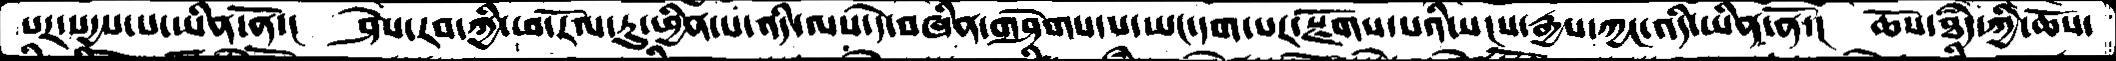པར་སདྱས་པ་ཡིན་ནོ་།  ཤེས་རབ་ཀྱི་ཕ་རོལ་ཏུ་ཕྱིན་པ་འདི་ལས་དེ་བཞིན་གཤེགས་པ་ཡང་དག་པར་སྫོགས་པའི་སངས་རྒྱས་ཀྱང་འདི་ཡིན་ནོ་།  ཆོས་ཐཾད་ཀྱི་ཆོས་
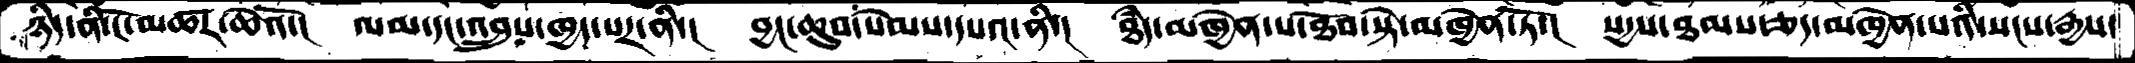ཉིད་ནི་ངོ་མཚར་ཆེའོ་།  ལམ་དང་འབྲུས་ཁྱད་པར་ནི་།  བྱང་ཆུབ་སེམས་དཔའ་ནི་།  ཐཾད་མཁྱེན་པ་ཐོབ་སྟེ་མཁྱེན་ཏོ་།  སདྱས་ཐམས་ཅད་མཁྱེན་པའི་སངས་རྒྱས་
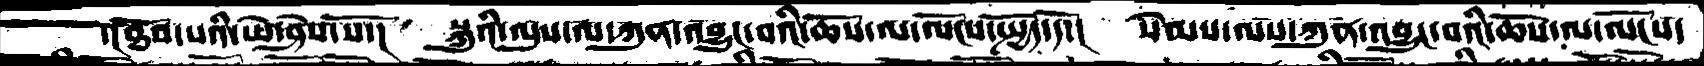་།ཐོབ་པའི་ཡེ་ཤེས་སོ་།  སྐུའི་ལུས་ལ་ཀུན་འབྱུང་བའི་ཆོས་ལ་ལོངས་སྤྱོད་དོ་།  སེམས་ལས་ཀུན་འབྱུང་བའི་ཆོས་ལ་ལོངས་
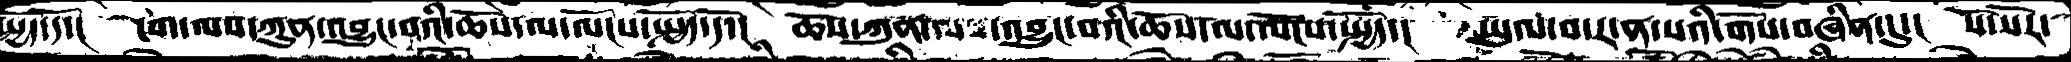སྤྱོད་དོ་།  ངག་ལས་ཀུན་འབྱུང་བའི་ཆོས་ལ་ལོངས་སྤྱོད་དོ་།  ཆོས་ཀུན་ལས་འབྱུང་བའི་ཆོས་ལ་ལོངས་སྤྱོད་།  ཡུལ་བ་ར་ན་སའི་གོས་བཞིན་དུ་།  སོ་སོར་
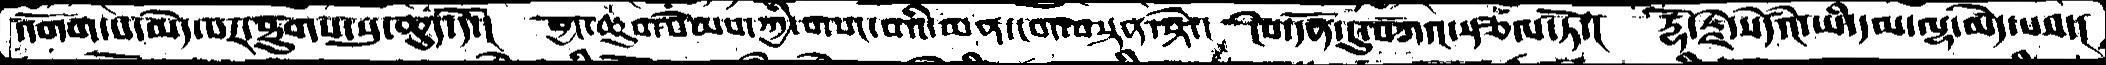འགག་པ་མེད་པར་ཐུགས་སུ་ཆུད་དོ་།  བྱང་ཆུབ་སེམས་ཀྱི་གསང་བའི་མན་ངག་བསྟན་སྟེ་།  ངེས་དོན་དུ་བཀའ་སྩལ་ཏོ་།  རྡོ་རྗེ་སེདཾའ་ཡི་དམ་ལྷ་མེད་པས་།
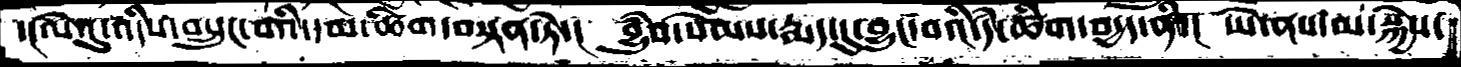་།ལེའུ་འདིས་བསྲུང་བའི་དམ་ཚིག་བསྟན་ཏེ་།  བྱུཾབ་སེམས་རྨད་དུ་བྱུང་བའི་དཾ་ཚིག་བདྱད་ནི་།  ཡེ་ནས་མ་སྐྱེས་
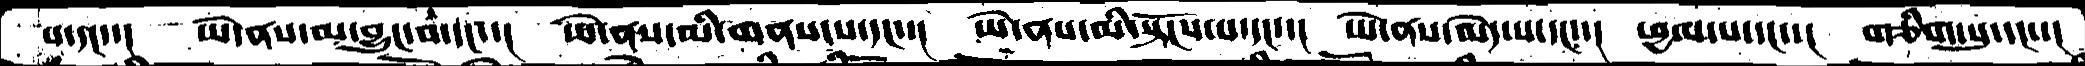ས་དང་་།  ཡེ་ནས་མ་བྱུང་བ་དང་་།  ཡེ་ནས་མི་གནས་པ་དང་་།  ཡེ་ནས་མི་སྟོངས་པ་དང་་།  ཡེ་ནས་མེད་པ་དང་་།  ཕྱལ་པ་དང་་།  གཅིག་པུ་དང་་།
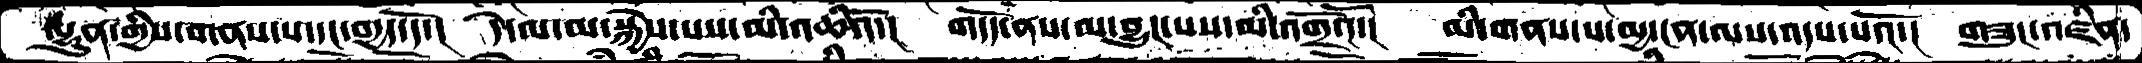ལྷུན་གྱིས་གནས་པ་དང་བདྱད་དོ་།  དེ་ལ་མ་སྐྱེས་པས་མི་འཆིའོ་།  གདོད་ནས་མ་བྱུང་པས་མི་འགྲོའོ་།   མི་གནས་པ་མྱ་ངན་ལས་འདས་པའོ་།  གཟུང་འཛིན་
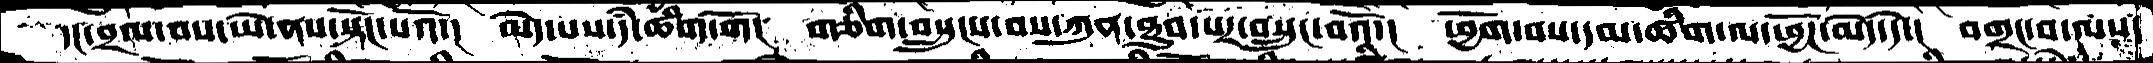དང་བྲལ་བས་ཡེ་ནས་སྟོང་པའོ་།  མེད་པས་དཾ་ཚིག་གོ།  གཅིག་བསྲུངས་བས་ཀུན་ཐུབ་པར་བསྲུང་བའོ་།  ཕྱོག་བས་དམ་ཚིག་ལ་ཕྱོཌ་མེད་དེ་།  བགྲང་བ་ལས་
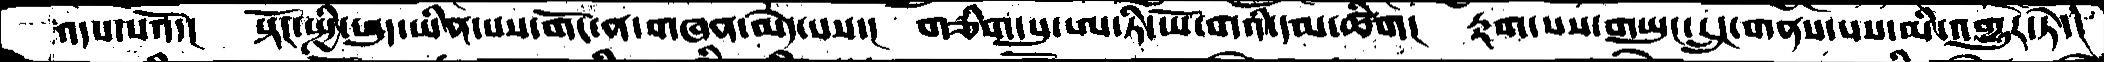འདས་པའོ་།   སྟོང་སྤྱི་ཕུད་ཡིན་པས་གོང་ན་གཞན་མདེ་པས་།  གཅིག་པུ་ཨ་ཏི་ཡོ་གའི་དམ་ཚིག།  རྟག་པས་གཡུང་དྲུང་གནས་པས་མི་འགྱུར་ཏེ་།
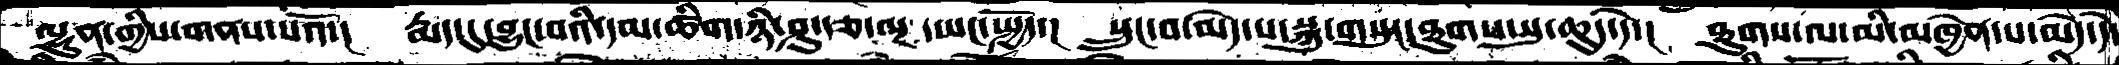ལྷུན་གྱིས་གནས་པའོ་།  རྨད་དུ་བྱུང་བའི་དམ་ཚིག་ཉི་ཤུ་རྩ་ལྔ་ཡང་སྤྱོད་།  སྲུང་བ་མེད་པ་སྐུ་གསུང་ཐུགས་སུ་ཆུད་དེ་།   ཐུགས་ལ་མི་མཁྱེན་པ་མེད་དེ་
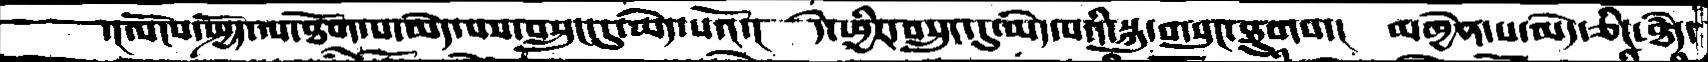་།ལོངས་སྤྱོད་ལ་ཐོག་པ་མེད་པས་བསྲུང་དུ་མེད་པའོ་།  དེ་ཕྱིར་བསྲུང་དུ་མེད་པའི་སྐུ་གསུང་ཐུགས་།  མཁྱེན་པ་མེད་ཅིང་ཐཾད་
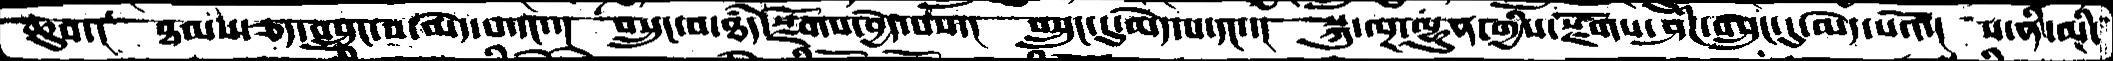ཆུབ་།  ཐམས་ཅད་བསྲུང་བ་མེད་པ་དང་།  བསྲུང་བ་ཐཾད་སྫོགས་བྱེད་པས་།  བསྲུང་དུ་མེད་པ་དང་་།  སྐུ་ལྔ་ལྷུན་གྱིས་སྫོགས་ཤིང་བསྲུང་དུ་མེད་པའོ་།  ས་ནི་མི་
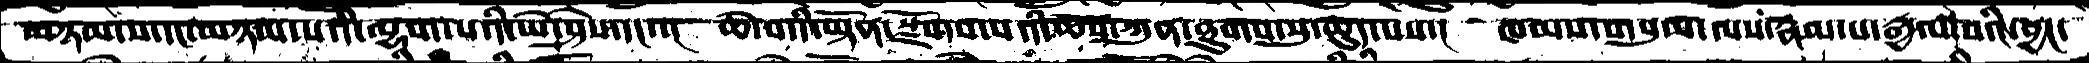མཉམ་པ་དང་མཉམ་པའི་ལྷག་པའི་ཡེ་ཤེས་དང་་།  ཆེ་བའི་ཡྟོན་སྫོགས་པའི་ཆོས་ཀུན་ཐུགས་སུ་ཆུད་པས་།  ཁམས་གསུམ་ལས་རྣམ་པ་རྒྱལ་བའི་བྱང་
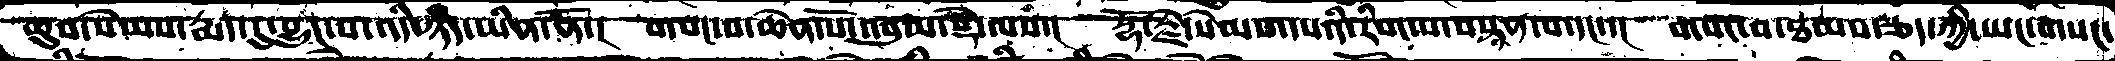ཆུབ་སེམས་རྨད་དུ་བྱུང་བ་འདི་ཉིད་ཡིན་ནོ་།  གསང་་བ་ཆེན་པོ་འབུམ་སྡེ་ལས་།  རྡོ་རྗེ་སེམས་པའི་རིག་པ་བསྟན་པ་དང་།  གསང་བ་ཐམས་ཅད་ཀྱི་ཡང་གསང་
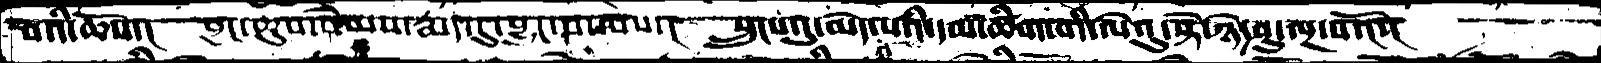བའི་ཆོས་།  བྱང་ཆུབ་སེམས་རྨད་དུ་བྱུང་བ་ལས་།  སྲུངས་དུ་མེད་པའི་དམ་ཚིག་གི་ལེའུ་སྟེ་ཉེ་ཤུ་ལྔ་པའོ་།
